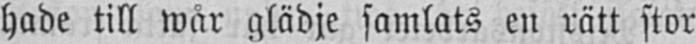hade till wår glädje samlats en rätt stor
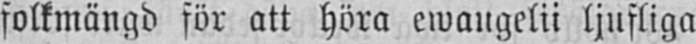folkmängd för att höra ewangelii ljufliga
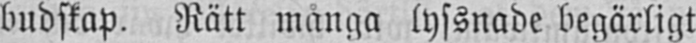budskap. Rätt många lyssnade begärligt
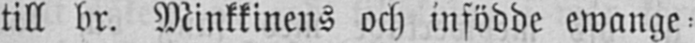till br. Minkkinens och infödde ewange-
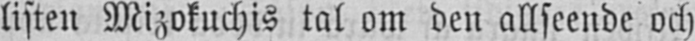listen Mizokuchis tal om den allseende och
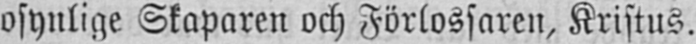osynlige Skaparen och Förlossaren, Kristus.
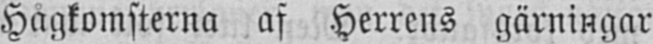Hågkomsterna af Herrens gärningar
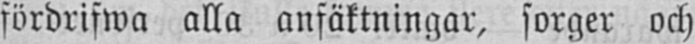fördrifwa alla anfäktningar, sorger och
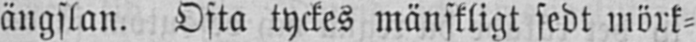ängslan. Ofta tyckes mänskligt sedt mörk-
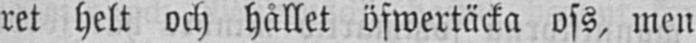ret helt och hållet öfwertäcka oss, men
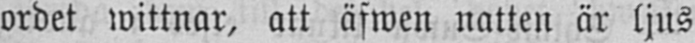ordet wittnar, att äfwen natten är ljus
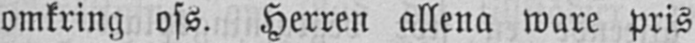omkring oss. Herren allena ware pris
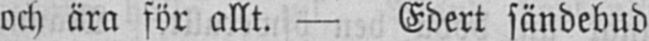och ära för allt. — Edert sändebud
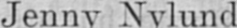Jenny Nylund
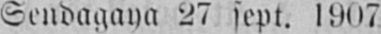Sendagaya 27 sept. 1907
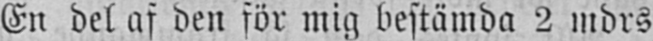En del af den för mig bestämda 2 mdrs
